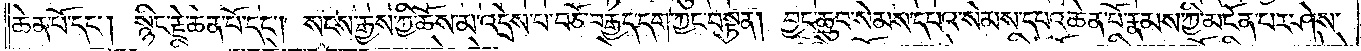ཆེན་པོ་དང༌། སྙིང་རྗེ་ཆེན་པོ་དང༌། སངས་རྒྱས་ཀྱི་ཆོས་མ་འདྲེས་པ་བཅོ་བརྒྱད་དག་ཀྱང་བསྟན། བྱང་ཆུབ་སེམས་དཔའ་སེམས་དཔའ་ཆེན་པོ་རྣམས་ཀྱི་མངོན་པར་ཤེས་
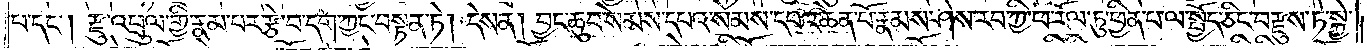པ་དང༌། རྫུ་འཕྲུལ་གྱི་རྣམ་པར་རྩེ་བ་དག་ཀྱང་བསྟན་ཏེ། དེས་ན། བྱང་ཆུབ་སེམས་དཔའ་སེམས་དཔའ་ཆེན་པོ་རྣམས་ཤེས་རབ་ཀྱི་ཕ་རོལ་ཏུ་ཕྱིན་པ་ལ་སྤྱོད་ཅིང་བརྫུས་ཏེ་སྐྱེ་
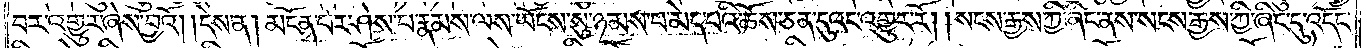བར་འགྱུར་ཞེས་བྱའོ། །དེས་ན། མངོན་པར་ཤེས་པ་རྣམས་ལས་ཡོངས་སུ་ཉམས་པ་མེད་པའི་ཆོས་ཅན་དུའང་འགྱུར་རོ། །སངས་རྒྱས་ཀྱི་ཞིང་ནས་སངས་རྒྱས་ཀྱི་ཞིང་དུ་འདོང་
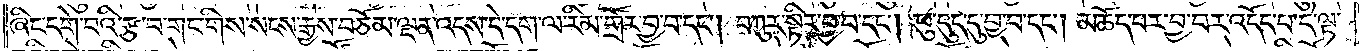ཞིང་དགེ་བའི་རྩ་བ་གང་གིས་སངས་རྒྱས་བཅོམ་ལྡན་འདས་དེ་དག་ལ་རིམ་གྲོར་བྱ་བ་དང༌། བཀུར་སྟིར་བྱ་བ་དང༌། ཕུ་དུང་དུ་བྱ་བ་དང༌། མཆོད་པར་བྱ་བར་འདོད་པ་དེ་ལྟ་
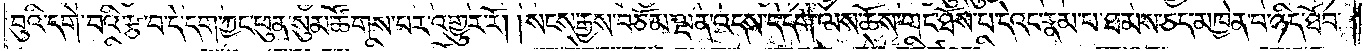བུའི་དགེ་བའི་རྩ་བ་དེ་དག་ཀྱང་ཕུན་སུམ་ཚོགས་པར་འགྱུར་རོ། །སངས་རྒྱས་བཅོམ་ལྡན་འདས་དེ་དག་ལས་ཆོས་གང་ཐོས་པ་དེའང་རྣམ་པ་ཐམས་ཅད་མཁྱེན་པ་ཉིད་ཐོབ་
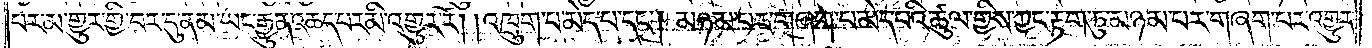པར་མ་གྱུར་གྱི་བར་དུ་ནམ་ཡང་རྒྱུན་ཆད་པར་མི་འགྱུར་རོ། །འཁྲུག་པ་མེད་པ་དང༌། མཉམ་པར་གཞག་པ་མེད་པའི་ཚུལ་གྱིས་ཀྱང་རྟག་ཏུ་མཉམ་པར་གཞག་པར་འགྱུར་
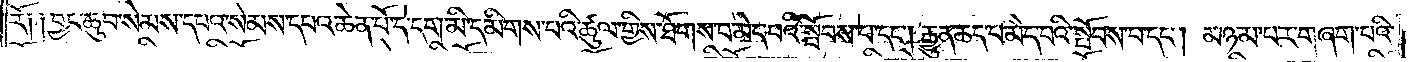རོ༑ ༑བྱང་ཆུབ་སེམས་དཔའ་སེམས་དཔའ་ཆེན་པོ་དེ་དག་མི་དམིགས་པའི་ཚུལ་གྱིས་ཐོགས་པ་མེད་པའི་སྤོབས་པ་དང༌། རྒྱུན་ཆད་པ་མེད་པའི་སྤོབས་པ་དང༌། མཉམ་པར་གཞག་པའི་
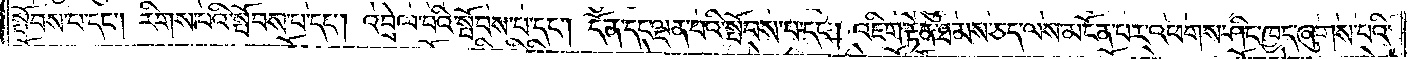སྤོབས་པ་དང༌། རིགས་པའི་སྤོབས་པ་དང༌། འབྲེལ་པའི་སྤོབས་པ་དང༌། དོན་དང་ལྡན་པའི་སྤོབས་པ་དང༌། འཇིག་རྟེན་ཐམས་ཅད་ལས་མངོན་པར་འཕགས་ཤིང་ཁྱད་ཞུགས་པའི་
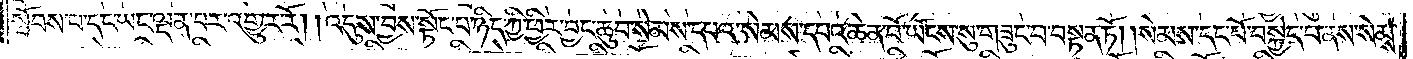སྤོབས་པ་དང་ཡང་ལྡན་པར་འགྱུར་རོ། །འདུས་བྱས་སྟོང་པ་ཉིད་ཀྱི་ཕྱིར། བྱང་ཆུབ་སེམས་དཔའ་སེམས་དཔའ་ཆེན་པོ་ཡོངས་སུ་བཟུང་བ་བསྟན་ཏོ། །སེམས་དང་པོ་བསྐྱེད་པ་ནས་སེམས་
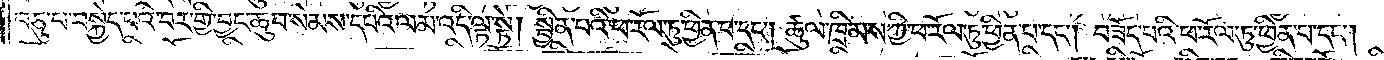བཅུ་པ་བསྐྱེད་པའི་བར་གྱི་བྱང་ཆུབ་སེམས་དཔའི་ལམ་འདི་ལྟ་སྟེ། སྦྱིན་པའི་ཕ་རོལ་ཏུ་ཕྱིན་པ་དང༌། ཚུལ་ཁྲིམས་ཀྱི་ཕ་རོལ་ཏུ་ཕྱིན་པ་དང༌། བཟོད་པའི་ཕ་རོལ་ཏུ་ཕྱིན་པ་དང༌།
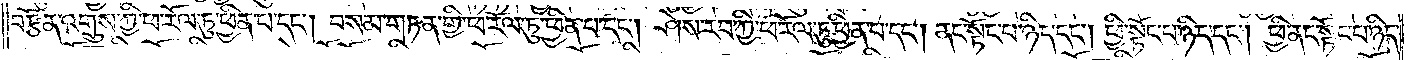བརྩོན་འགྲུས་ཀྱི་ཕ་རོལ་ཏུ་ཕྱིན་པ་དང༌། བསམ་གཏན་གྱི་ཕ་རོལ་ཏུ་ཕྱིན་པ་དང༌། ཤེས་རབ་ཀྱི་ཕ་རོལ་ཏུ་ཕྱིན་པ་དང༌། ནང་སྟོང་པ་ཉིད་དང༌། ཕྱི་སྟོང་པ་ཉིད་དང༌། ཕྱི་ནང་སྟོང་པ་ཉིད་
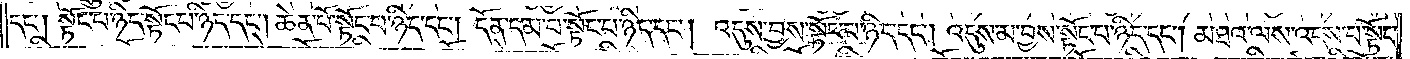དང༌། སྟོང་པ་ཉིད་སྟོང་པ་ཉིད་དང༌། ཆེན་པོ་སྟོང་པ་ཉིད་དང༌། དོན་དམ་པ་སྟོང་པ་ཉིད་དང༌། འདུས་བྱས་སྟོང་པ་ཉིད་དང༌། འདུས་མ་བྱས་སྟོང་པ་ཉིད་དང༌། མཐའ་ལས་འདས་པ་སྟོང་
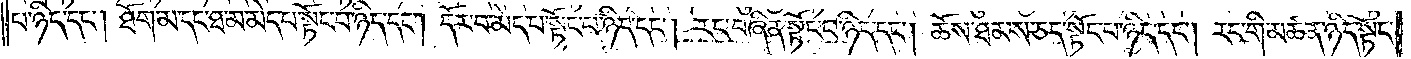པ་ཉིད་དང༌། ཐོག་མ་དང་ཐ་མ་མེད་པ་སྟོང་པ་ཉིད་དང༌། དོར་བ་མེད་པ་སྟོང་པ་ཉིད་དང༌། རང་བཞིན་སྟོང་པ་ཉིད་དང༌། ཆོས་ཐམས་ཅད་སྟོང་པ་ཉིད་དང༌། རང་གི་མཚན་ཉིད་སྟོང་
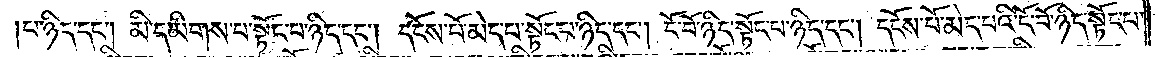པ་ཉིད་དང༌། མི་དམིགས་པ་སྟོང་པ་ཉིད་དང༌། དངོས་པོ་མེད་པ་སྟོང་པ་ཉིད་དང༌། ངོ་བོ་ཉིད་སྟོང་པ་ཉིད་དང༌། དངོས་པོ་མེད་པའི་ངོ་བོ་ཉིད་སྟོང་པ་
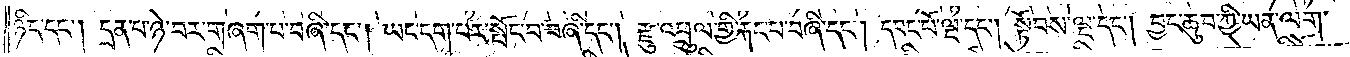ཉིད་དང༌། དྲན་པ་ཉེ་བར་བཞག་པ་བཞི་དང༌། ཡང་དག་པར་སྤོང་བ་བཞི་དང༌། རྫུ་འཕྲུལ་གྱི་རྐང་པ་བཞི་དང༌། དབང་པོ་ལྔ་དང༌། སྟོབས་ལྔ་དང༌། བྱང་ཆུབ་ཀྱི་ཡན་ལག་
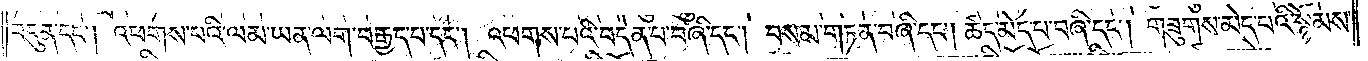བདུན་དང༌། འཕགས་པའི་ལམ་ཡན་ལག་བརྒྱད་པ་དང༌། འཕགས་པའི་བདེན་པ་བཞི་དང༌། བསམ་གཏན་བཞི་དང༌། ཚད་མེད་པ་བཞི་དང༌། གཟུགས་མེད་པའི་སྙོམས་
